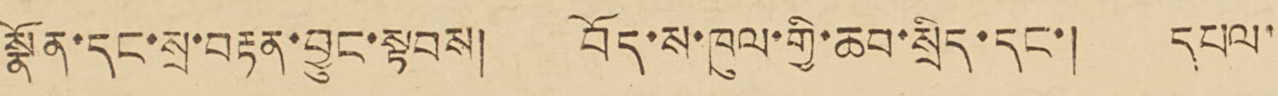སྣོན་དང་སྲ་བརྟན་བྱུང་སྟབས། བོད་ས་ཁུལ་གྱི་ཆབ་སྲིད་དང་། དཔལ་
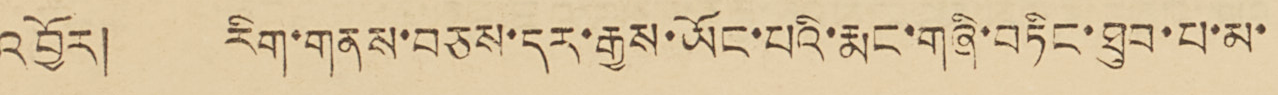འབྱོར། རིག་གནས་བཅས་དར་རྒྱས་ཡོང་པའི་རྨང་གཞི་བཏིང་ཐུབ་པ་མ་
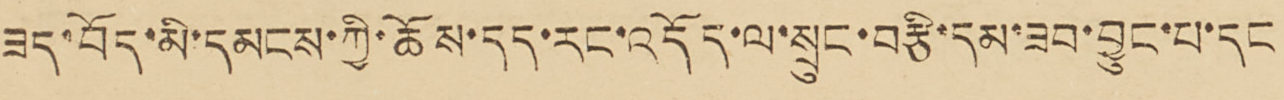ཟད་བོད་མི་དམངས་ཀྱི་ཆོས་དད་རང་འདོད་ལ་སྲུང་བརྩི་དམ་ཟབ་བྱུང་པ་དང
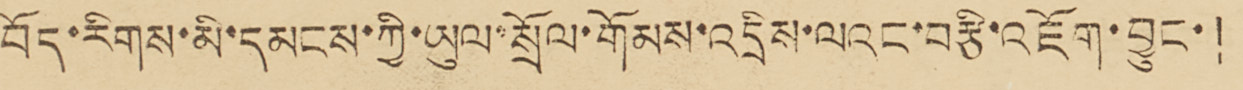བོད་རིགས་མི་དམངས་ཀྱི་ཡུལ་སྲོལ་གོམས་འདྲིས་ལའང་བརྩི་འཇོག་བྱུང་།
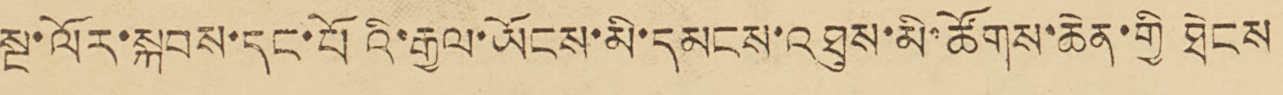སྔ་ལོར་སྐབས་དང་པོའི་རྒྱལ་ཡོངས་མི་དམངས་འཐུས་མི་ཚོགས་ཆེན་གྱི ཐེངས
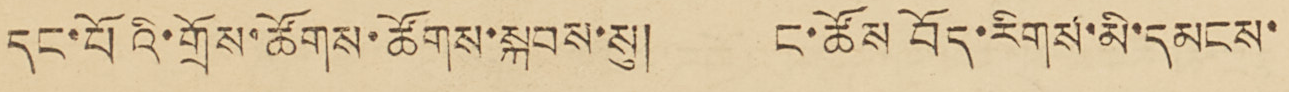དང་པོའི་གྲོས་ཚོགས་ཚོགས་སྐབས་སུ། ང་ཚོས བོད་རིགས་མི་དམངས་
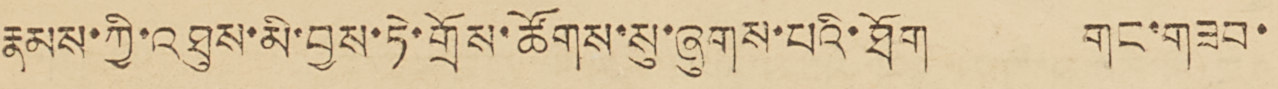རྣམས་ཀྱི་འཐུས་མི་བྱས་ཏེ་གྲོས་ཚོགས་སུ་ཞུགས་པའི་ཐོག གང་གཟབ་
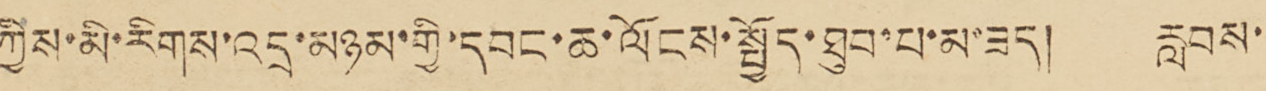ཀྱིས་མི་རིགས་འདྲ་མཉམ་གྱི་དབང་ཆ་ལོངས་སྤྱོད་ཐུབ་པ་མ་ཟད། རླབས་
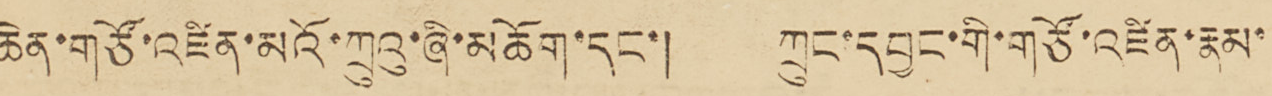ཆེན་གཙོ་འཛིན་མའོ་ཀྲུའུ་ཞི་མཆོག་དང་། ཀྲུང་དབྱང་གི་གཙོ་འཛིན་རྣམ་
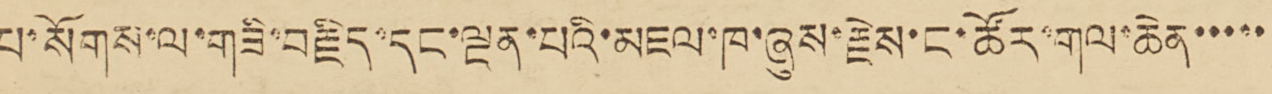པ་སོགས་ལ་གཟི་བརྗིད་དང་ལྔན་པའི་མཇལ་ཁ་ཞུས་རྗེས་ང་ཚོར་གལ་ཆེན་་་་་
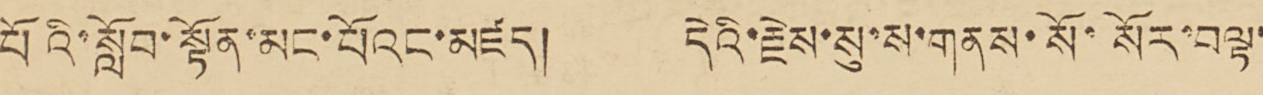པོའི་སློབ་སྟོན་མང་པོའང་མཛད། དེའི་རྗེས་སུ་ས་གནས་སོ་སོར་བལྟ་
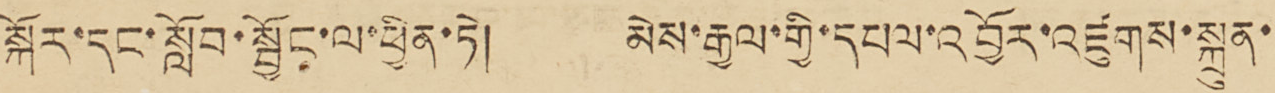སྐོར་དང་སློབ་སྦྱོང་ལ་ཕྱིན་ཏེ། མེས་རྒྱལ་གྱི་དཔལ་འབྱོར་འཛུགས་སྐྲུན་
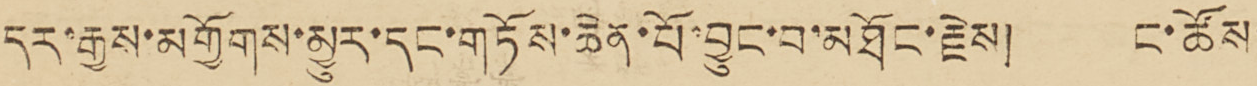དར་རྒྱས་མགྱོགས་མྱུར་དང་གཏོས་ཆེན་པོ་བྱུང་བ་མཐོང་རྗེས། ང་ཚོས་
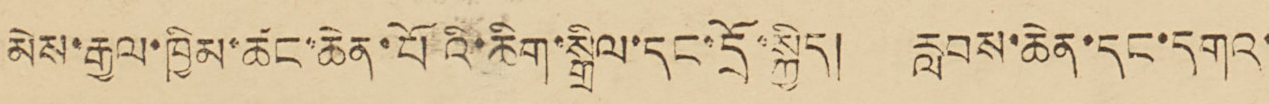མེས་རྒྱལ་ཁྱིམ་ཚང་ཆེན་པོའི་ཆིག་སྒྲིལ་དང་དྲོ་སྐྱིད། རླབས་ཆེན་དང་དགའ་
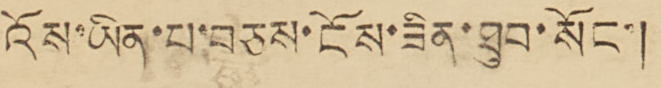འོས་ཡིན་པ་བཅས་ངོས་ཟིན་ཐུབ་སོང་།
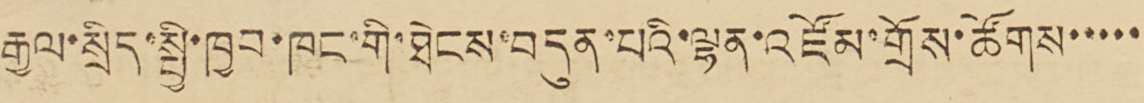རྒྱལ་སྲིད་སྤྱི་ཁྱབ་ཁང་གི་ཐེངས་བདུན་པའི་ལྷན་འཛོམ་གྲོས་ཚོགས་་་་་
